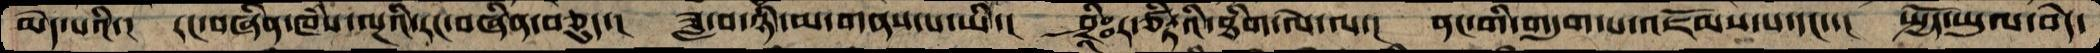མེད་པའི་།   རང་བཞིན་ཁཾས་ལྔའི་རང་བཞིན་བཅུད་།  ཟླ་བ་ཉི་མ་གནས་པ་ཡི་།  ཤྲཱཱིཿར་ཙིཏྟའི་ཐིག་ལེ་ལ་།  ནང་གི་གདུག་པ་འཇོམས་པ་དང་་།  སྤྱོད་ཡུལ་བདེ་
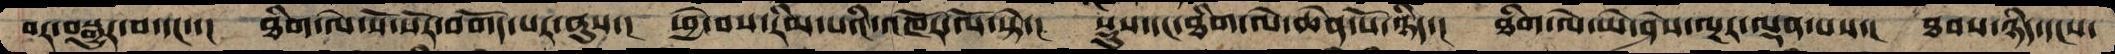བར་བསྒྱུར་བ་དང་་།  ཐིག་ལེ་སོ་སོར་བགོད་པར་ནུས་།  ཕྱེ་བས་རིམ་པའི་འཁོར་ལོ་སྟེ་།  སྡུས་དང་ཐིག་ལེ་ཆེན་པོ་ཉིད་།  ཐིག་ལེ་ཡེ་ཤེས་ལྔར་ལྡན་པས་།  ཐབས་ཉིད་དངས་
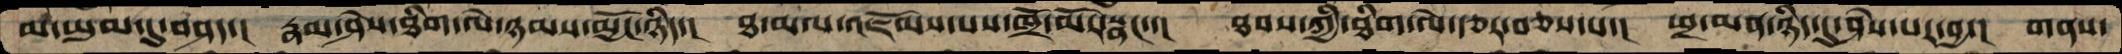མ་ཡུམ་དུ་བཤད་།  རྣམ་ཤེས་ཐིག་ལེ་ཉམས་མྱོང་ཉིད་།  ཐ་མལ་འཇོམས་པས་ཁྲོ་མོར་སྣང་་།  ཐབས་ཀྱི་ཐིག་ལེ་རྩར་བཅས་པ་།  ཕྲ་མན་ཉིད་དུ་ཤེས་པར་བྱ་།  གནས་
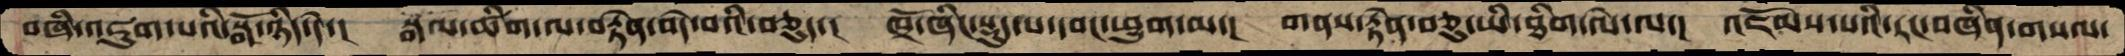བཞི་འཇུག་པའི་སྒོ་ཉིད་དེ་།  སྒལ་ཚིག་ལ་བརྟེན་བདེ་བའི་བཅུད་།  ཁྲོ་ཞིང་སྡུད་པ་དབང་ཕྱུག་མ་།  གནས་རྟེན་བཅུ་ཡི་ཐིག་ལེ་ལ་།  འཇོམས་པའི་རང་བཞིན་གསལ་
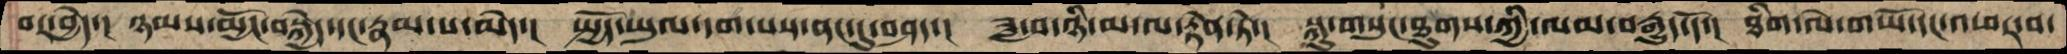བར་བྱེད་།  ཉམས་མྱོང་བསྐྱེད་དང་རྣམ་པ་མེད་།  སྤྱོད་ཡུལ་དག་པས་ནང་དུ་བཤད་།  ཟླ་བ་ཉི་མ་ལ་རྟེན་ཏེ་།  སྐུ་གསུང་ཐུགས་ཀྱི་ལམ་བརྒྱུད་དོ་།  ཐིག་ལེ་གཡོ་དང་འཕར་བ་
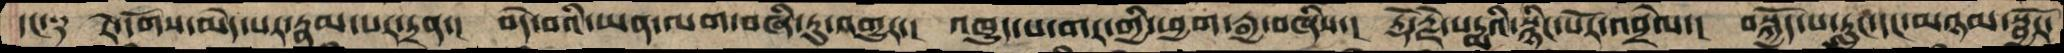དང་༑  རེ་དོགས་མེད་པར་རྣམ་པར་དྲན་།  བདེ་བའི་ཡན་ལག་བཞི་རུ་འགྱུར་།  འཁྱུད་པ་གར་གྱི་ཕྱག་རྒྱ་བཞིས་།  རྡོ་རྗེ་པདྨའི་སྙིང་པོར་འབྲེལ་།  བསྐྱོད་པ་རླུང་དང་མཉམ་སྦྱོར་
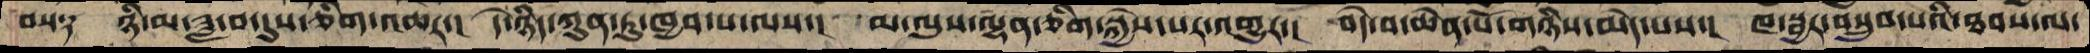བས༑  ཉི་མ་ཟླ་བ་དུས་ཅིག་འཆར་།  དེ་ཉིད་ཀུན་ཏུ་ཁྱབ་པ་ལས་།  མ་ལུས་ལྷན་ཅིག་སྐྱེས་པར་འགྱུར་།  བདེ་བ་ཆེན་པོ་གཉིས་མེད་པས་།  ཁ་སྦྱར་བསྲུབ་པའི་ཐབས་ལ་
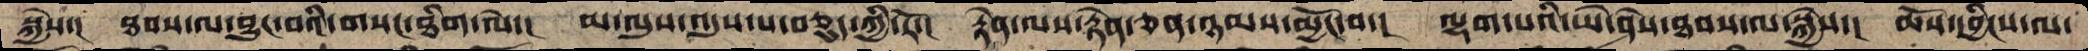སྐྱེས་།  ཐབས་ལ་བྱུང་བའི་གསང་ཐིག་ལེ་།  མ་ལུས་འདུས་པ་བཅུད་ཀྱི་རོ་།  རྟེན་ལས་རྟེན་ཅན་ཉམས་མྱོང་བ་།  ལྷག་པའི་ཡེ་ཤེས་ཐབས་ལ་སྐྱེས་།  ཆོས་དབྱིངས་ལ་
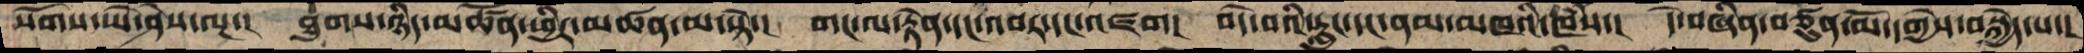སོགས་ཡེ་ཤེས་ལྔ་།  ཐུགས་ཉིད་མཚོན་ཕྱིར་མཚན་མ་སྟེ་།  གང་ལ་རྟེན་དང་འབར་དང་འཛག།  བདེ་བའི་རླུང་དང་ནམ་མཁའི་ཁཾས་།  དེ་བཞིན་བཙུན་མོ་དགྱེས་བསྐྱེད་པ་།
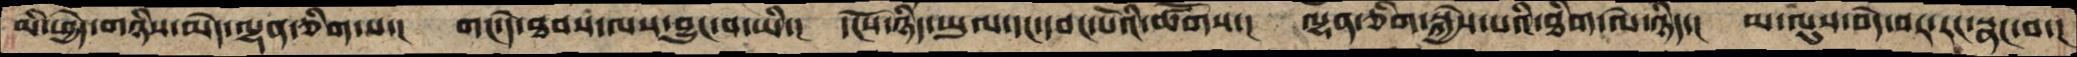མི་ཕྱེད་གཉིས་མེད་ལྷན་ཅིག་པ་།  གང་དེ་ཐབས་ལས་བྱུང་བ་ཡི་།  དངོས་ཉིད་ཡུལ་དང་དབང་པོའི་ཚོགས་།  ལྷན་ཅིག་སྐྱེས་པའི་ཐིག་ལེ་ཉིད་།  མ་ལུས་བདེ་བར་རང་སྣང་བ་།
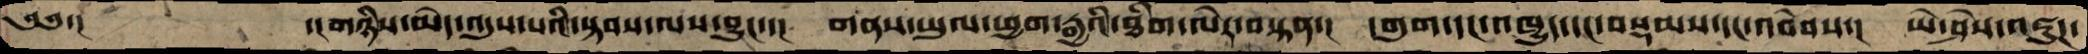༄༅་།    ་།གཉིས་མེད་འདུས་པའི་སྟབས་ལས་བྱུང་་།  གནས་ཡུལ་ཕྱག་རྒྱའི་ཐིག་ལེར་བསྟན་།  དགུག་དང་འཁྱུད་དང་བསྡམས་དང་འབེབས་།  ཡེ་ཤེས་འཇུཌ་
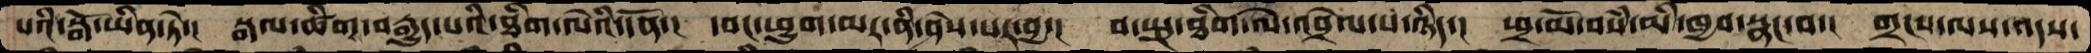པའི་སྒོ་ཡིན་ཏེ་།  སྒལ་ཚིག་བརྒྱུད་པའི་ཐིག་ལེའི་དོན་།  དབང་ཕྱུག་མར་ནི་ཤེས་པར་བྱ་།  བ་སྤུ་ཐིག་ལེ་འབྲེལ་པ་ཉིད་།  ཕྲ་མོ་བསཾ་མི་ཁྱབ་སྣང་བ་།  གྲངས་ལས་འདས་
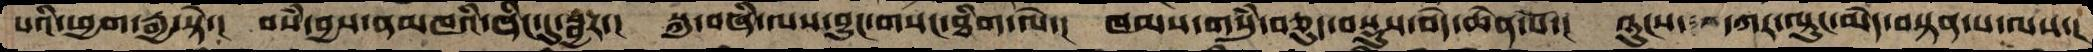པའི་ཕྱག་རྒྱ་སྟེ་།  བསཾ་བྱས་ནམཁའི་ཞིང་དུ་སྦྱར་།  སྐུ་བཞི་ལས་བྱུང་གསང་ཐིག་ལེ་།  ཁམས་གསུཾ་བཅུད་བསྡུས་བདེ་ཆེན་པོ་།  ཉུངས་  དཀར་ལྟུང་མེད་བསྟན་པ་ལས་།
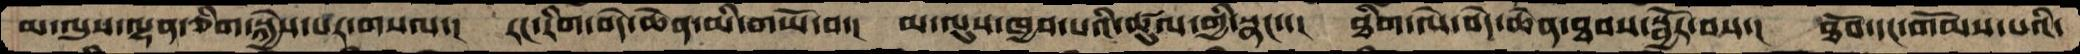མ་ལུས་ལྷན་ཅིག་སྐྱེས་པར་གསལ་།  རང་རིག་བདེ་ཆེན་མི་གཡོ་བ་།  མ་ལུས་ཁྱབ་པའི་ཚུལ་གྱི་སྣང་་།  ཐིག་ལེ་བདེ་ཆེན་ཐབས་སྦྱོར་བས་།  ཐོབ་དང་གོམས་པའི་
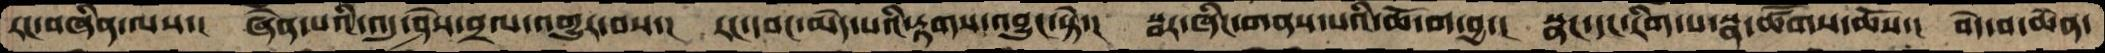རང་བཞིན་ལས་།  ཞེན་པའི་འདུ་ཤེས་བྲལ་འགྱུར་བས་།  རང་དབང་མེད་པའི་རྟགས་འབྱུང་སྟེ་།  སྦར་ཞིང་གནས་པའི་ཆོ་ག་བྱ་།  སྣང་དང་རིག་པ་སྣ་ཚོགས་ཆོས་།  བདེ་བ་ཆེན་
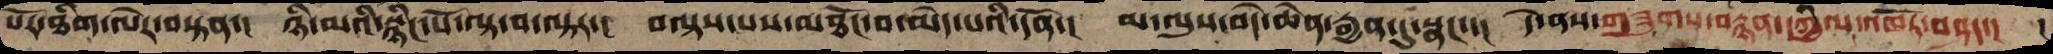པོར་ཐིག་ལེར་བསྟན་།  ཉི་མའི་སྙིང་པོ་ལྟ་བ་ལྟར་།  བལྟས་པས་མཐོང་བ་མེད་པའི་དོན་།  མ་ལུས་བདེ་ཆེན་རྒྱན་དུ་སྣང་་།  དེ་ནས་གཟུགས་བརྙན་དཀྱིལ་འཁོར་བཤད་།  །
